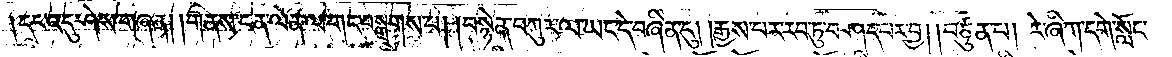།དང་འདུ་ཤེས་གཞན། །གནས་ངན་ལེན་ལ་གང་བསྒྲགས་པ། །བསྙེན་བཀུར་ལ་ཡང་དེ་བཞིན་དུ། །རྒྱས་པར་རབ་ཏུ་བཤད་པར་བྱ། །བཙུན་པ། རེ་ཞིག་དགེ་སློང་
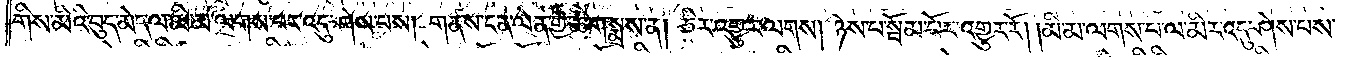གིས་མིའི་བུད་མེད་ལ་མི་མ་ལགས་པར་འདུ་ཤེས་པས། གནས་ངན་ལེན་གྱི་ཚིག་སྨྲས་ན། ཅིར་འགྱུར་ལགས། ཉེས་པ་སྦོམ་པོར་འགྱུར་རོ། །མི་མ་ལགས་པ་ལ་མིར་འདུ་ཤེས་པས་
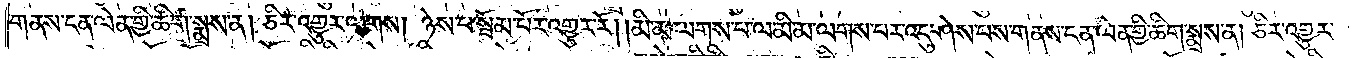གནས་ངན་ལེན་གྱི་ཚིག་སྨྲས་ན། ཅིར་འགྱུར་ལགས། ཉེས་པ་སྦོམ་པོར་འགྱུར་རོ། །མི་མ་ལགས་པ་ལ་མི་མ་ལགས་པར་འདུ་ཤེས་པས་གནས་ངན་ལེན་གྱི་ཚིག་སྨྲས་ན། ཅིར་འགྱུར་
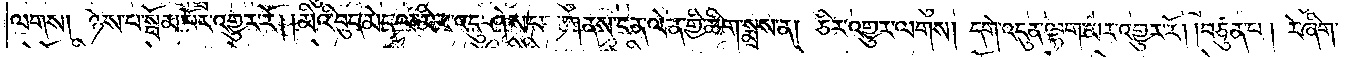ལགས། ཉེས་པ་སྦོམ་པོར་འགྱུར་རོ། །མིའི་བུད་མེད་ལ་མིར་འདུ་ཤེས་པས་གནས་ངན་ལེན་གྱི་ཚིག་སྨྲས་ན། ཅིར་འགྱུར་ལགས། དགེ་འདུན་ལྷག་མར་གྱུར་རོ། །བཙུན་པ། རེ་ཞིག་
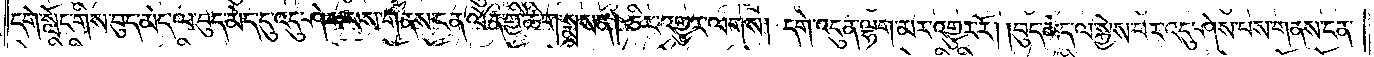དགེ་སློང་གིས་བུད་མེད་ལ་བུད་མེད་དུ་འདུ་ཤེས་པས་གནས་ངན་ལེན་གྱི་ཚིག་སྨྲས་ན། ཅིར་འགྱུར་ལགས། དགེ་འདུན་ལྷག་མར་འགྱུར་རོ། །བུད་མེད་ལ་སྐྱེས་པར་འདུ་ཤེས་པས་གནས་ངན་
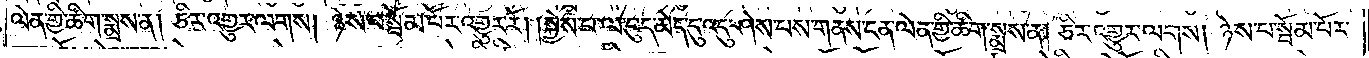ལེན་གྱི་ཚིག་སྨྲས་ན། ཅིར་འགྱུར་ལགས། ཉེས་པ་སྦོམ་པོར་འགྱུར་རོ། །སྐྱེས་པ་ལ་བུད་མེད་དུ་འདུ་ཤེས་པས་གནས་ངན་ལེན་གྱི་ཚིག་སྨྲས་ན། ཅིར་འགྱུར་ལགས། ཉེས་པ་སྦོམ་པོར་
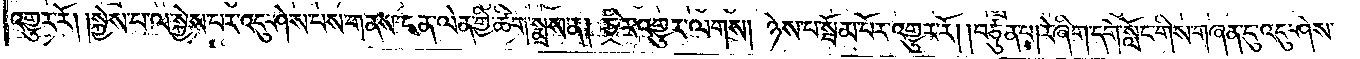འགྱུར་རོ། །སྐྱེས་པ་ལ་སྐྱེས་པར་འདུ་ཤེས་པས་གནས་ངན་ལེན་གྱི་ཚིག་སྨྲས་ན། ཅིར་འགྱུར་ལགས། ཉེས་པ་སྦོམ་པོར་འགྱུར་རོ། །བཙུན་པ། རེ་ཞིག་དགེ་སློང་གིས་གཞན་དུ་འདུ་ཤེས་
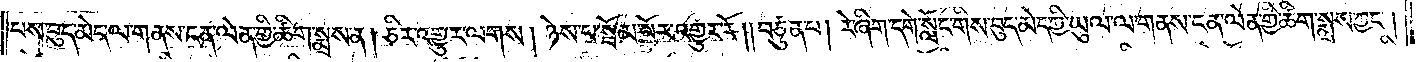པས་བུད་མེད་ལ་གནས་ངན་ལེན་གྱི་ཚིག་སྨྲས་ན། ཅིར་འགྱུར་ལགས། ཉེས་པ་སྦོམ་པོར་འགྱུར་རོ། །བཙུན་པ། རེ་ཞིག་དགེ་སློང་གིས་བུད་མེད་ཀྱི་ཡུལ་ལ་གནས་ངན་ལེན་གྱི་ཚིག་སྨྲས་ཀྱང༌།
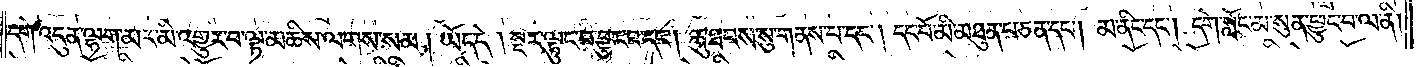དགེ་འདུན་ལྷག་མར་མི་འགྱུར་བ་ལྟ་མཆིས་ལགས་སམ། ཡོད་དེ། སྔར་ལྟུང་བ་བྱུང་བ་དང༌། རྐུ་ཐབས་སུ་གནས་པ་དང༌། དང་པོ་མི་མཐུན་པ་ཅན་དང༌། མ་ནིང་དང༌། དགེ་སློང་མ་སུན་ཕྱུང་བ་ལ་ནི།
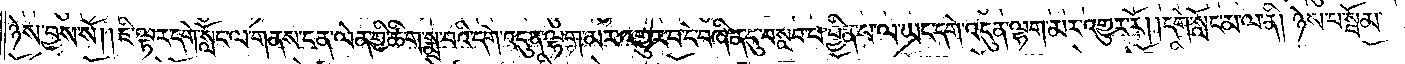ཉེས་བྱས་སོ། །ཇི་ལྟར་དགེ་སློང་ལ་གནས་ངན་ལེན་གྱི་ཚིག་སྨྲ་བའི་དགེ་འདུན་ལྷག་མར་འགྱུར་བ་དེ་བཞིན་དུ་བསླབ་པ་བྱིན་པ་ལ་ཡང་དགེ་འདུན་ལྷག་མར་འགྱུར་རོ། །དགེ་སློང་མ་ལ་ནི། ཉེས་པ་སྦོམ་
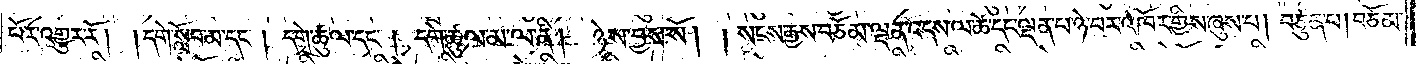པོར་འགྱུར་རོ། །དགེ་སློབ་མ་དང༌། དགེ་ཚུལ་དང༌། དགེ་ཚུལ་མ་ལ་ནི། ཉེས་བྱས་སོ། །སངས་རྒྱས་བཅོམ་ལྡན་འདས་ལ་ཚེ་དང་ལྡན་པ་ཉེ་བར་འཁོར་གྱིས་ཞུས་པ། བཙུན་པ། བཅོམ་
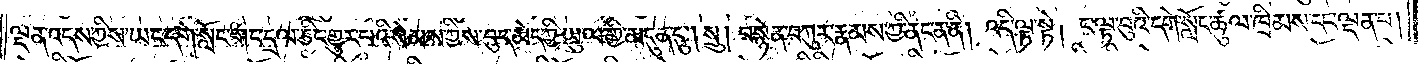ལྡན་འདས་ཀྱིས་ཡང་དགེ་སློང་གང་དྲལ་ཅིང་གྱུར་པའི་སེམས་ཀྱིས་བུད་མེད་ཀྱི་ཡུལ་གྱི་མདུན་དུ། སྲུ། བསྙེན་བཀུར་རྣམས་ཀྱི་ནང་ན་ནི། འདི་ལྟ་སྟེ། ང་ལྟ་བུའི་དགེ་སློང་ཚུལ་ཁྲིམས་དང་ལྡན་པ།
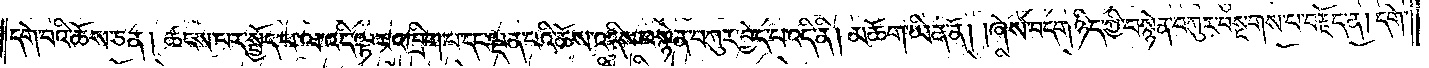དགེ་བའི་ཆོས་ཅན། ཚངས་པར་སྤྱོད་པ་ལ་འདི་ལྟར་འཁྲིག་པ་དང་ལྡན་པའི་ཆོས་འདིས་བསྙེན་བཀུར་བྱེད་པ་འདི་ནི། མཆོག་ཡིན་ནོ། །ཞེས་བདག་ཉིད་ཀྱི་བསྙེན་བཀུར་བསྔགས་པ་བརྗོད་ན། དགེ་
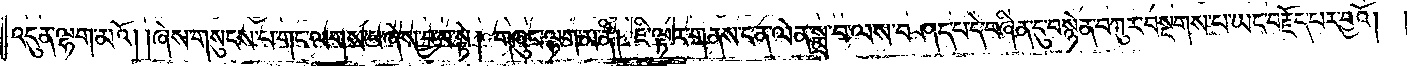འདུན་ལྷག་མའོ། །ཞེས་གསུངས་པ་གང་ལགས་པ་ཞེས་བྱ་བ་སྟེ། གཞུང་ལྷག་མ་ནི། ཇི་ལྟར་གནས་ངན་ལེན་སྨྲ་བ་ལས་བཤད་པ་དེ་བཞིན་དུ་བསྙེན་བཀུར་བསྔགས་པ་ཡང་བརྗོད་པར་བྱའོ།
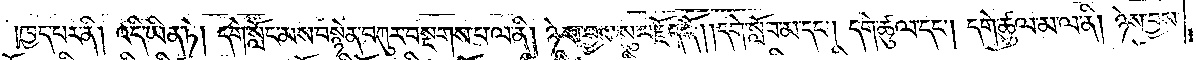།ཁྱད་པར་ནི། འདི་ཡིན་ཏེ། དགེ་སློང་མས་བསྙེན་བཀུར་བསྔགས་པ་ལ་ནི། ཉེས་བྱས་སུ་བརྗོད་དོ། །དགེ་སློབ་མ་དང༌། དགེ་ཚུལ་དང༌། དགེ་ཚུལ་མ་ལ་ནི། ཉེས་བྱས་
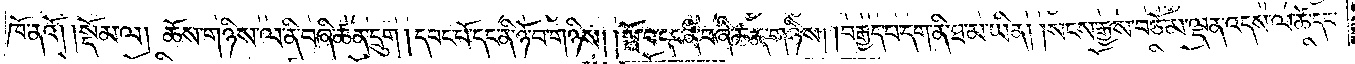ཁོ་ནའོ།    །སྡོམ་ལ། ཆོས་གཉིས་ལ་ནི་བཞི་ཚན་དྲུག །དབང་པོ་དང་ནི་ཉོ་བ་གཉིས། །སྦོ་བ་དང་ནི་བཞི་ཚན་གཉིས། །བརྒྱད་པ་དག་ནི་ཐ་མ་ཡིན། །སངས་རྒྱས་བཅོམ་ལྡན་འདས་ལ་ཚེ་དང་
